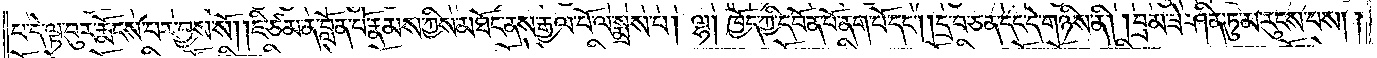པ་དེ་ལྟ་བུར་རྨོངས་པར་བྱས་སོ། །ཇི་ཙམ་ན་བློན་པོ་རྣམས་ཀྱིས་མཐོང་ནས་རྒྱལ་པོ་ལ་སྨྲས་པ། ལྷ། ཁྱོད་ཀྱི་དཔོན་པོ་ནག་པོ་དང༌། །དྲ་བ་ཅན་དང་དེ་གཉིས་ནི། །བྲམ་ཟེ་ཤིན་ཏུ་མ་རུངས་པས། །
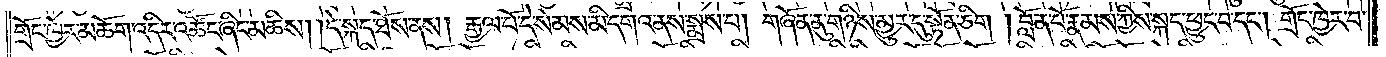གྲོང་ཁྱེར་མཆོག་འདིར་འཚོང་ཞིང་མཆིས། །དེ་སྐད་ཐོས་ནས། རྒྱལ་པོ་དེ་སེམས་མི་དགའ་ནས་སྨྲས་པ། གཞོན་ནུ་གཉིས་མྱུར་དུ་སྟོན་ཅིག །བློན་པོ་རྣམས་ཀྱིས་སྐད་ཕྱུང་བ་དང༌། གྲོང་ཁྱེར་བ་
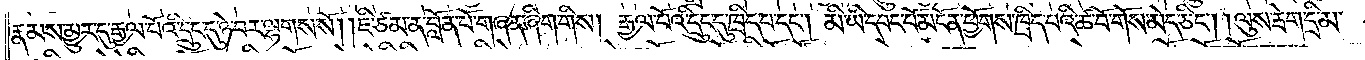རྣམས་མྱུར་དུ་རྒྱལ་པོའི་དྲུང་དུ་ཉེ་བར་ལྷགས་སོ། །ཇི་ཙམ་ན་བློན་པོ་གཞན་ཞིག་གིས། རྒྱལ་པོའི་དྲུང་དུ་ཁྲིད་པ་དང༌། མི་ཡི་དབང་པོ་མངོན་ཕྱོགས་ཁྲིད་པའི་ཚ་བོ་གོས་མེད་ཅིང༌། །ལུས་རྦེག་དྲི་མ་
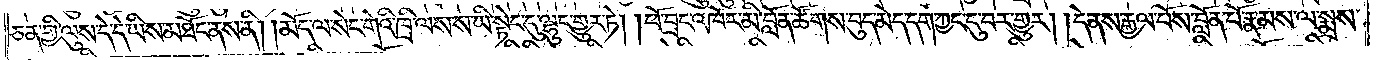ཅན་གྱི་ལུས་དེ་དེ་ཡིས་མཐོང་ནས་ནི། །མོད་ལ་སེང་གེའི་ཁྲི་ལས་ས་ཡི་སྟེང་དུ་ལྷུང་གྱུར་ཏེ། །ཕོ་བྲང་འཁོར་མི་བློན་ཚོགས་བུད་མེད་དག་ཀྱང་དུ་བར་གྱུར། །དེ་ནས་རྒྱལ་པོས་བློན་པོ་རྣམས་ལ་སྨྲས་
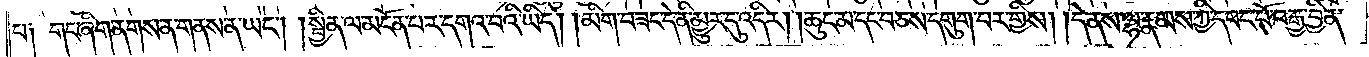པ༑ གང་ཞིག་ནགས་ན་གནས་ན་ཡང༌། །སྦྱིན་ལ་མངོན་པར་དགའ་བའི་ཡིད། །མིག་བཟང་དེ་ནི་མྱུར་དུ་འདིར། །ཆུང་མ་དང་བཅས་དགུག་པར་གྱིས། །དེ་ནས་ལྷ་རྣམས་ཀྱི་དབང་པོ་བརྒྱ་བྱིན་
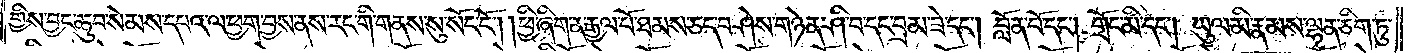གྱིས་བྱང་ཆུབ་སེམས་དཔའ་ལ་ཕྱག་བྱས་ནས་རང་གི་གནས་སུ་སོང་ངོ༌། །ཕྱི་ཞིག་ན་རྒྱལ་པོ་ཐམས་ཅད་བཤེས་གཉེན་ཤི་བ་དང་བྲམ་ཟེ་དང༌། བློན་པོ་དང༌། གྲོང་མི་དང༌། ཡུལ་མི་རྣམས་ལྷན་ཅིག་ཏུ་
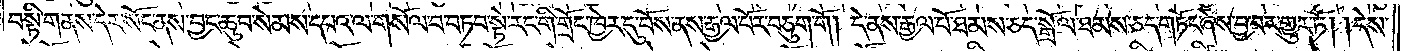བསྟི་གནས་དེར་སོང་ནས་བྱང་ཆུབ་སེམས་དཔའ་ལ་གསོལ་བ་བཏབ་སྟེ་རང་གི་གྲོང་ཁྱེར་དུ་བོས་ནས་རྒྱལ་པོར་བཅུག་གོ། དེ་ནས་རྒྱལ་པོ་ཐམས་ཅད་སྒྲོལ་ཐམས་ཅད་གཏོང་ཞེས་བྱ་བར་གྱུར་ཏོ། །དེས་
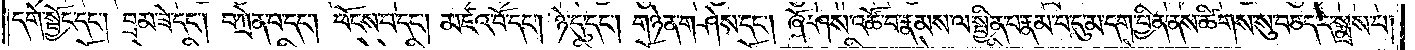དགེ་སྦྱོང་དང༌། བྲམ་ཟེ་དང༌། བཀྲེན་པ་དང༌། ཕོངས་པ་དང༌། མཛའ་བོ་དང༌། ཉེ་དུ་དང༌། གཉེན་གཤེས་དང༌། ཞོ་ཤས་འཚོ་བ་རྣམས་ལ་སྦྱིན་པ་རྣམ་པ་དུ་མ་དག་སྦྱིན་ནས་ཚིགས་སུ་བཅད་དེ་སྨྲས་པ།
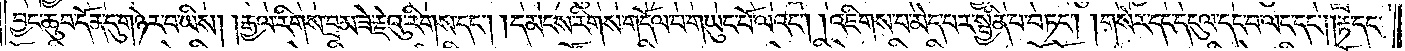བྱང་ཆུབ་དོན་དུ་གཉེར་བ་ཡིས། །རྒྱལ་རིགས་བྲམ་ཟེ་རྗེའུ་རིགས་དང༌། །དམངས་རིགས་གདོལ་པ་གཡུང་པོ་ལའང༌། །འཇིགས་པ་མེད་པར་སྦྱིན་པ་བཏང༌། །གསེར་དང་དངུལ་དང་བ་ལང་དང༌། །རྟ་དང་
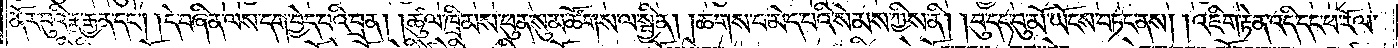ནོར་བུའི་རྣ་རྒྱན་དང༌། །དེ་བཞིན་ལས་དག་བྱེད་པའི་བྲན། །ཚུལ་ཁྲིམས་ཕུན་སུམ་ཚོགས་ལ་སྦྱིན། །ཆགས་པ་མེད་པའི་སེམས་ཀྱིས་ནི། །བུ་དང་བུ་མོ་ཡོངས་བཏང་ནས། །འཇིག་རྟེན་འདི་དང་ཕ་རོལ་
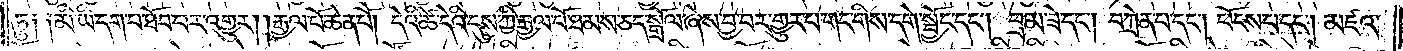ཏུ༑ ༑མི་ཡི་དག་པ་ཐོབ་པར་འགྱུར། །རྒྱལ་པོ་ཆེན་པོ། དེའི་ཚེ་དེའི་དུས་ཀྱི་རྒྱལ་པོ་ཐམས་ཅད་སྒྲོལ་ཞེས་བྱ་བར་གྱུར་པ་གང་གིས་དགེ་སྦྱོང་དང༌། བྲམ་ཟེ་དང༌། བཀྲེན་པ་དང༌། ཕོངས་པ་དང༌། མཛའ་
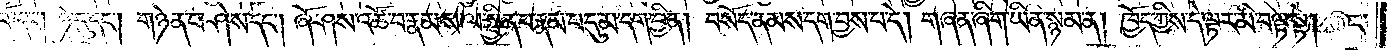བོ་དང༌། ཉེ་དུ་དང༌། གཉེན་བཤེས་དང༌། ཞོ་ཤས་འཚོ་བ་རྣམས་ལ་སྦྱིན་པ་རྣམ་པ་དུ་མ་དག་བྱིན། བསོད་ནམས་དག་བྱས་པ་དེ། གཞན་ཞིག་ཡིན་སྙམ་ན། ཁྱོད་ཀྱིས་དེ་ལྟར་མི་བལྟ་སྟེ། ང་
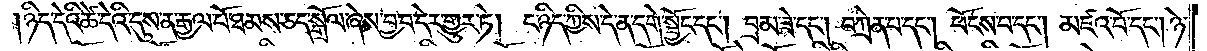ཉིད་དེའི་ཚེ་དེའི་དུས་ན་རྒྱལ་པོ་ཐམས་ཅད་སྒྲོལ་ཞེས་བྱ་བ་དེར་གྱུར་ཏེ། ང་ཉིད་ཀྱིས་དེ་ན་དགེ་སྦྱོང་དང༌། བྲམ་ཟེ་དང༌། བཀྲེན་པ་དང༌། ཕོངས་པ་དང༌། མཛའ་བོ་དང༌། ཉེ་
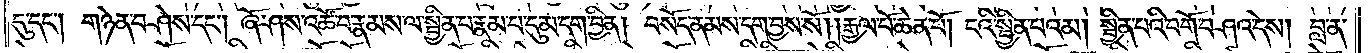དུ་དང༌། གཉེན་བཤེས་དང༌། ཞོ་ཤས་འཚོ་བ་རྣམས་ལ་སྦྱིན་པ་རྣམ་པ་དུ་མ་དག་བྱིན། བསོད་ནམས་དག་བྱས་སོ། །རྒྱལ་པོ་ཆེན་པོ། ངའི་སྦྱིན་པའམ། སྦྱིན་པའི་བགོ་བཤའ་དེས། བླ་ན་
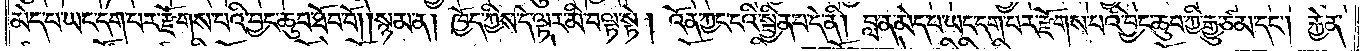མེད་པ་ཡང་དག་པར་རྫོགས་པའི་བྱང་ཆུབ་ཐོབ་བོ། །སྙམ་ན། ཁྱོད་ཀྱིས་དེ་ལྟར་མི་བལྟ་སྟེ། འོན་ཀྱང་ངའི་སྦྱིན་པ་དེ་ནི། བླ་ན་མེད་པ་ཡང་དག་པར་རྫོགས་པའི་བྱང་ཆུབ་ཀྱི་རྒྱུ་ཙམ་དང༌། རྐྱེན་
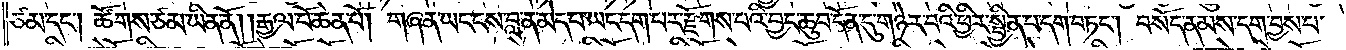ཙམ་དང༌། ཚོགས་ཙམ་ཡིན་ནོ། །རྒྱལ་པོ་ཆེན་པོ། གཞན་ཡང་ངས་བླ་ན་མེད་པ་ཡང་དག་པར་རྫོགས་པའི་བྱང་ཆུབ་དོན་དུ་གཉེར་བའི་ཕྱིར་སྦྱིན་པ་དག་བཏང༌། བསོད་ནམས་དག་བྱས་པ་
